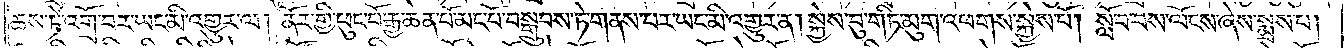ཆས་ཏེ་འགྲོ་བར་ཡང་མི་འགྱུར་ལ། ནོར་གྱི་ཕུང་པོ་རྒྱ་ཆེན་པོ་མང་པོ་བསྒྲུབས་ཏེ་གནས་པར་ཡང་མི་འགྱུར་ན། སྐྱེས་བུ་གཏི་མུག་འཕགས་སྐྱེས་སོ། སློབ་པས་ལོངས་ཞེས་སྨྲས་པ།
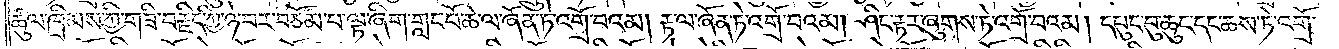ཚུལ་ཁྲིམས་ཀྱི་གཟི་བརྗིད་ཀྱི་ཉེ་བར་བཅོམ་པ་ལྟ་ཞིག་གླང་པོ་ཆེ་ལ་ཞོན་ཏེ་འགྲོ་བའམ། རྟ་ལ་ཞོན་ཏེ་འགྲོ་བའམ། ཤིང་རྟར་ཞུགས་ཏེ་འགྲོ་བའམ། དཔུང་བུ་ཆུང་དང་ཆས་ཏེ་འགྲོ་
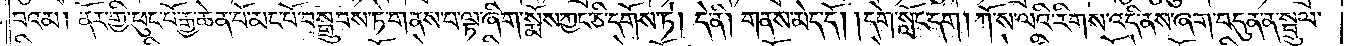བའམ། ནོར་གྱི་ཕུང་པོ་རྒྱ་ཆེན་པོ་མང་པོ་བསྒྲུབས་ཏེ་གནས་པ་ལྟ་ཞིག་སྨོས་ཀྱང་ཅི་དགོས་ཏེ། དེ་ནི། གནས་མེད་དོ། །དགེ་སློང་དག །ཀོ་ས་ལའི་རིགས་འདི་ནས་ཞག་བདུན་ན་སྦྲུལ་
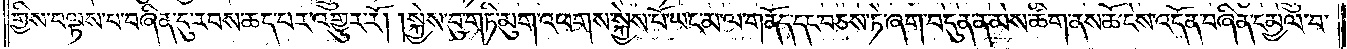གྱིས་བལྟས་པ་བཞིན་དུ་རབས་ཆད་པར་འགྱུར་རོ། །སྐྱེས་བུ་གཏི་མུག་འཕགས་སྐྱེས་པོ་ཡང་མ་ལ་གནོད་དང་བཅས་ཏེ་ཞག་བདུན་ན་མེས་ཚིག་ནས་ཆོ་ངེས་འདོན་བཞིན་དམྱལ་བ་
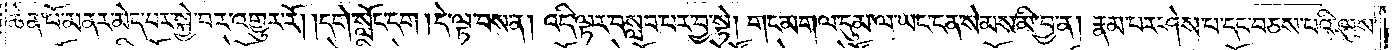ཆེན་པོ་མནར་མེད་པར་སྐྱེ་བར་འགྱུར་རོ། །དགེ་སློང་དག །དེ་ལྟ་བས་ན། འདི་ལྟར་བསླབ་པར་བྱ་སྟེ། གང་མགལ་དུམ་ལ་ཡང་ངན་སེམས་མི་བྱ་ན། རྣམ་པར་ཤེས་པ་དང་བཅས་པའི་ལུས་
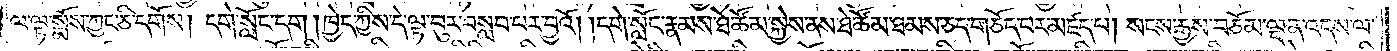ལ་ལྟ་སྨོས་ཀྱང་ཅི་དགོས། དགེ་སློང་དག །ཁྱེད་ཀྱིས་དེ་ལྟ་བུར་བསླབ་པར་བྱའོ། །དགེ་སློང་རྣམས་ཐེ་ཚོམ་སྐྱེས་ནས་ཐེ་ཚོམ་ཐམས་ཅད་གཅོད་པར་མཛད་པ། སངས་རྒྱས་བཅོམ་ལྡན་འདས་ལ་
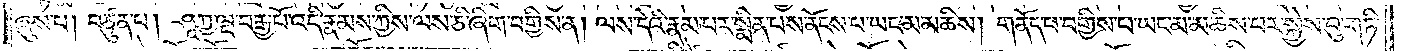ཞུས་པ། བཙུན་པ། ཤཱཀྱ་ལྔ་བརྒྱ་པོ་འདི་རྣམས་ཀྱིས་ལས་ཅི་ཞིག་བགྱིས་ན། ལས་དེའི་རྣམ་པར་སྨིན་པས་ནོངས་པ་ཡང་མ་མཆིས། གནོད་པ་བགྱིས་པ་ཡང་མ་མཆིས་པར་སྐྱེས་བུ་གཏི་
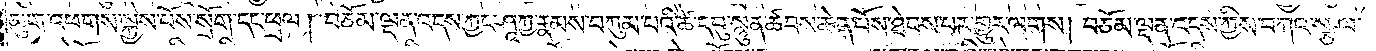མུག་འཕགས་སྐྱེས་པོས་སྲོག་དང་ཕྲལ། བཅོམ་ལྡན་འདས་ཀྱང་ཤཱཀྱ་རྣམས་བཀུམ་པའི་ཚེ་དབུ་སྙུན་ཚབས་ཆེན་པོས་ཐེབས་པར་གྱུར་ལགས། བཅོམ་ལྡན་འདས་ཀྱིས་བཀའ་སྩལ་
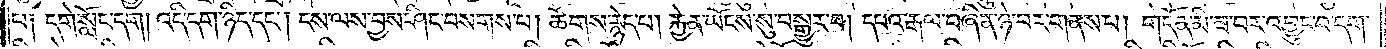པ༑ དགེ་སློང་དག། འདི་དག་ཉིད་དང༌། ངས་ལས་བྱས་ཤིང་བསགས་པ། ཚོགས་རྙེད་པ། རྐྱེན་ཡོངས་སུ་བསྒྱུར་བ། དཔའ་རྒལ་བཞིན་ཉེ་བར་གནས་པ། གདོན་མི་ཟ་བར་འབྱུང་བ་དག་
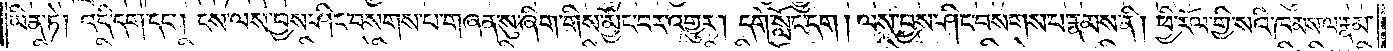ཡིན་ཏེ། འདི་དག་དང༌། ངས་ལས་བྱས་ཤིང་བསགས་པ་གཞན་སུ་ཞིག་གིས་མྱོང་བར་འགྱུར། དགེ་སློང་དག། ལས་བྱས་ཤིང་བསགས་པ་རྣམས་ནི། ཕྱི་རོལ་གྱི་སའི་ཁམས་ལ་རྣམ་
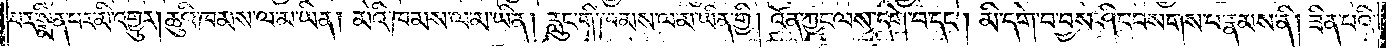པར་སྨིན་པར་མི་འགྱུར། ཆུའི་ཁམས་ལ་མ་ཡིན། མེའི་ཁམས་ལ་མ་ཡིན། རླུང་གི་ཁམས་ལ་མ་ཡིན་གྱི། འོན་ཀྱང་ལས་དགེ་བ་དང༌། མི་དགེ་བ་བྱས་ཤིང་བསགས་པ་རྣམས་ནི། ཟིན་པའི་
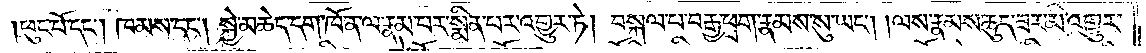ཕུང་པོ་དང༌། ཁམས་དང༌། སྐྱེ་མཆེད་དག་ཁོ་ན་ལ་རྣམ་པར་སྨིན་པར་འགྱུར་ཏེ། བསྐལ་པ་བརྒྱ་ཕྲག་རྣམས་སུ་ཡང༌། །ལས་རྣམས་ཆུད་ཟར་མི་འགྱུར་
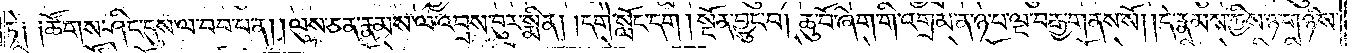ཏེ༑ ༑ཚོགས་ཤིང་དུས་ལ་བབ་པ་ན། །ལུས་ཅན་རྣམས་ལ་འབྲས་བུར་སྨིན། །དགེ་སློང་དག །སྔོན་བྱུང་བ། ཆུ་བོ་ཞིག་གི་འགྲམ་ན་ཉ་པ་ལྔ་བརྒྱ་གནས་སོ། །དེ་རྣམས་ཀྱིས་ཉ་གཉིས་
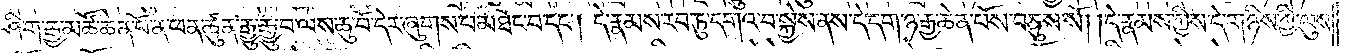ཤིག་རྒྱ་མཚོ་ཆེན་པོ་ན་ཕན་ཚུན་རྒྱུ་རྒྱུ་བ་ལས་ཆུ་བོ་དེར་ཞུགས་པ་མཐོང་བ་དང༌། དེ་རྣམས་རབ་ཏུ་དགའ་བ་སྐྱེས་ནས་དེ་དག་ཉ་རྒྱ་ཆེན་པོས་བཅུས་སོ། །དེ་རྣམས་ཀྱིས་དེ་གཉིས་ཀྱི་ལུས་
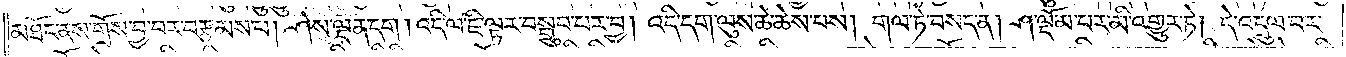མཐོང་ནས་གྲོས་བྱ་བར་བརྩམས་པ། ཤེས་ལྡན་དག །འདི་ལྟ་ཇི་ལྟར་བསྒྲུབ་པར་བྱ། འདི་དག་ལུས་ཆེ་ཆེས་པས། གལ་ཏེ་བསད་ན། ཤ་ལྡོམ་པར་མི་འགྱུར་ཏེ། དེ་འདྲུལ་བར་
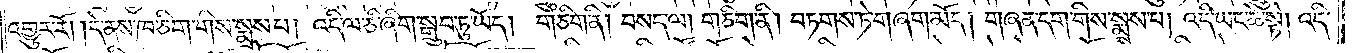འགྱུར་རོ། །དེ་ནས་ཁ་ཅིག་གིས་སྨྲས་པ། འདི་ལ་ཅི་ཞིག་སྒྲུབ་ཏུ་ཡོད། གཅིག་ནི། བསད་ལ། གཅིག་ནི། བཏགས་ཏེ་གཞག་མོད། གཞན་དག་གིས་སྨྲས་པ། འདི་ཡང་ཆེ་སྟེ། འདི་
